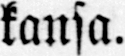kansa.
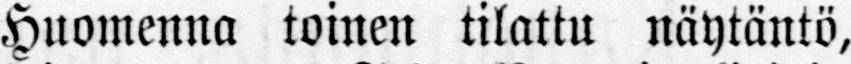Huomenna toinen tilattu näytäntö,
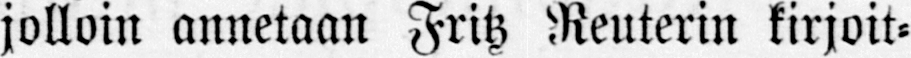jolloin annetaan Fritz Reuterin kirjoit-
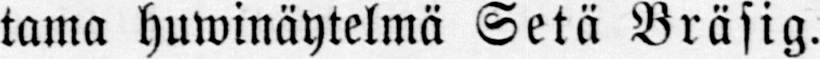tama huwinäytelmä Setä Bräsig.
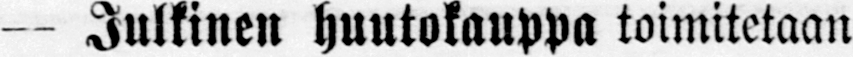— Julkinen huutokauppa toimitetaan
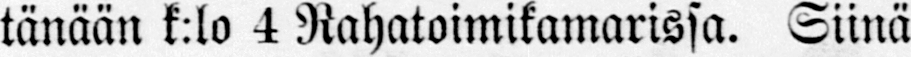tänään k:lo 4 Rahatoimikamarissa. Siinä
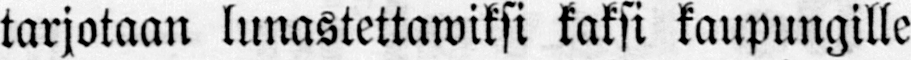tarjotaan lunastettawiksi kaksi kaupungille
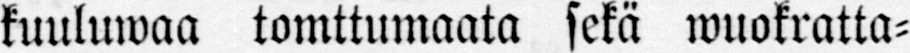kuuluwaa tomttumaata sekä wuokratta-
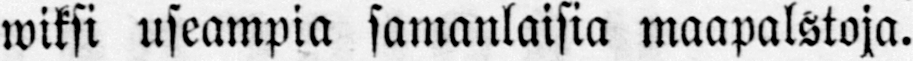wiksi useampia samanlaisia maapalstoja.
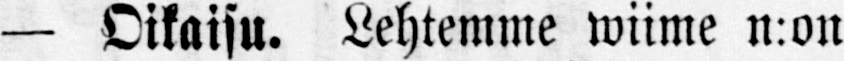— Oikaisu. Lehtemme wiime n:on
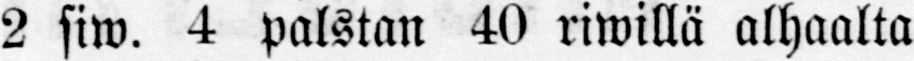2 siw. 4 palstan 40 riwillä alhaalta
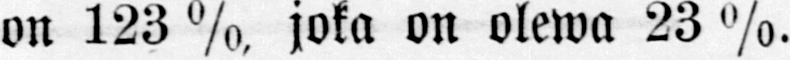on 123%, joka on olewa 23%.
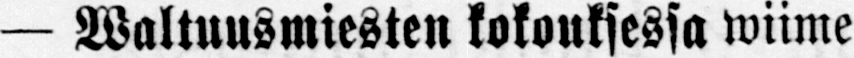— Waltuusmiesten kokouksessa wiime
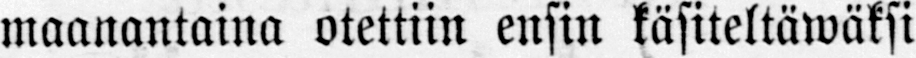maanantaina otettiin ensin käsiteltäwäksi
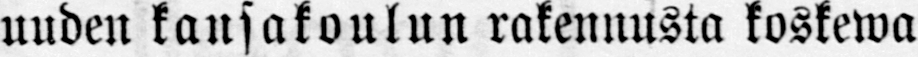uuden kansakoulun rakennusta koskewa
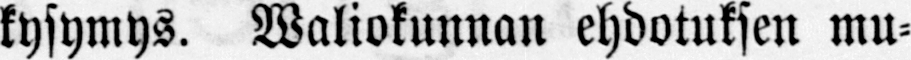kysymys. Waliokunnan ehdotuksen mu-
